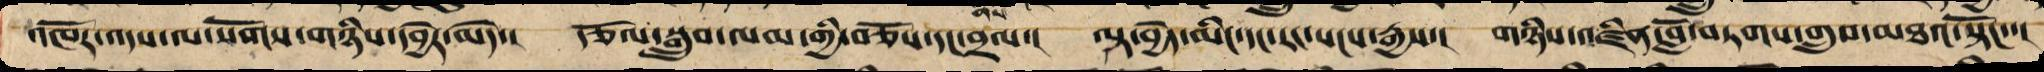འཁོར་འདས་ལ་སོགས་གཉིས་དབྱེར་མེད་།  རྩོོོལ་སྒྲུབ་ལམ་་གྱི་བཅོས་དང་བྲལ་།   ལྟ་བྱེད་མིང་དང་རང་སངས་རྒྱས་།   གཉིས་འཛིན་བློ་བཏགས་གྲུབ་མཐའ་སྟོང་་།
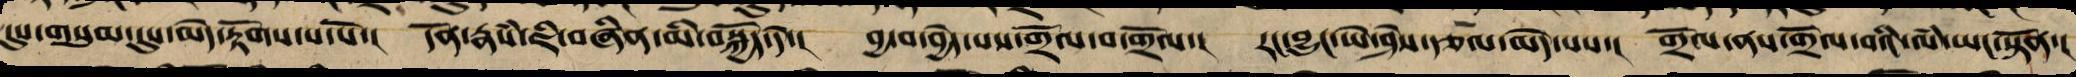དུས་གསུམ་དུས་མེད་རྟོགས་པ་པོ་། དོན་རྣཾས་ཇི་བཞིན་མི་བསྐྱོད་དེ་། བྱ་བ་བྱེད་པས་གྲོལ་བ་གྲོལ་། རང་བྱུང་ཡེ་ཤེས་རྩལ་མེད་པས་། གྲོལ་ནས་གྲོལ་བའི་ལཾ་ཡང་སྟོན་།
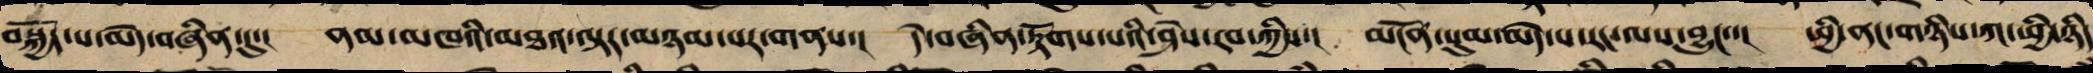བསྐྱོད་པ་མེད་བཞིན་དུ་། ནམ་མཁའི་མཐའ་ལྟར་མཉམ་པར་གནས་། དེ་བཞིན་རྟོགས་པའི་ཤེས་རབ་ཀྱིས་། མངོན་སུམ་མེད་པ་རང་ལས་བྱུང་་། ཕྱི་ནང་གཉིས་ཀ་ཕྱི་ཉིད
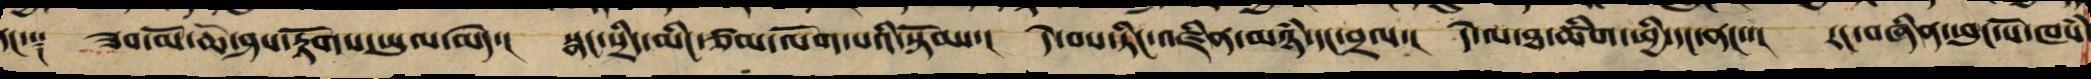དང་༑ ཟབ་མོ་ཆ་ཤས་རྟོགས་ཡུལ་མེད་། སྣང་སྲིད་མིང་ཙམ་ལོག་པའི་སྟོབས་། དེ་བས་ཏིང་འཛིན་མཉཾ་དང་བྲལ་། དེ་ལ་ཐ་ཚིག་ཕྱི་དང་ནང་་། རང་བཞིན་ཕུང་པོ་ཁཾས་
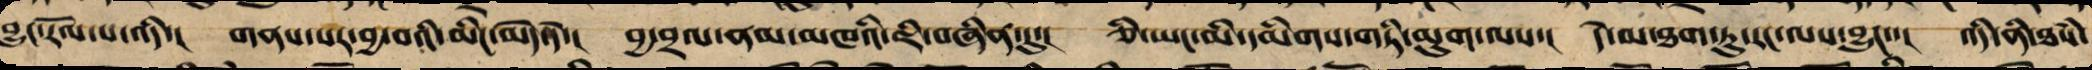བྱུང་རོལ་པ་འདི་། གནས་པར་བྱ་བའི་མིང་མེད་དེ་། བྱ་བྲལ་ནམ་མཁའི་ཇི་བཞིན་དུ་། ཅི་ཡང་མི་དམིགས་གཏི་མུག་ལས་། དེ་མ་ཐག་ཏུ་རང་ལས་བྱུང་་། འདི་ནི་ཐཾས་
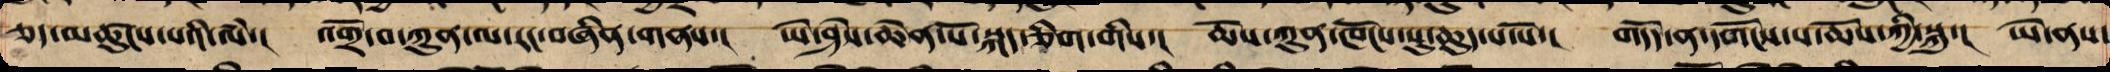ཅད་མཚུངས་པའི་ལཾ་། འགྲོ་བ་ཀུན་ལ་རང་བཞིན་གནས་། ཡེ་ཤེས་ཆེན་པོ་སྐད་ཅིག་གིས་། ཆོས་ཀུན་ཁོང་དུ་ཆུད་པ་པོ་། གདོད་ནས་དག་པ་ཆོས་ཀྱི་སྐུ་། ཡེ་ནས་
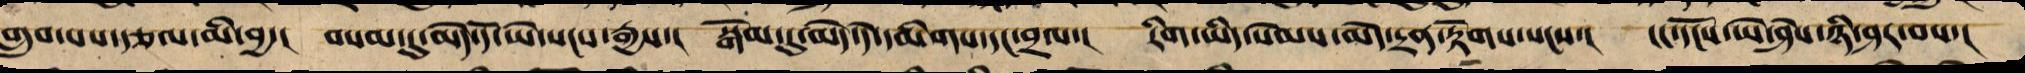གྲུབ་པས་བཙལ་མི་བྱ་། བསམ་དུ་མེད་དེ་ཡེ་སངས་རྒྱས་། སྒོམ་དུ་མེད་དེ་དམིགས་དང་བྲལ་། རིག་ཡིད་སེམས་མེད་དྲན་རྟོག་སངས་། ངང་དངོས་ཡེ་ཤེས་ཉི་ཤར་བས་།
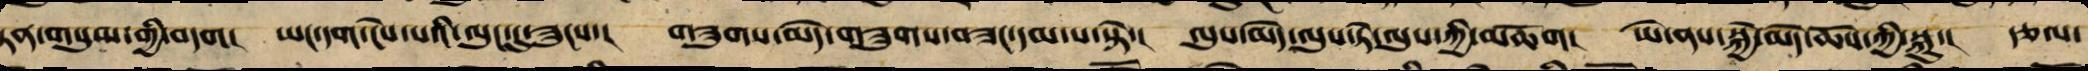ཏན་གསུམ་གྱི་བདག། ཡང་དག་ངེས་པའི་ལུང་དུ་ཟུངས་། གཟུགས་མེད་གཟུགས་བཟང་དམ་པ་སྟེ་། ལུས་མེད་ལུས་ཏེ་ལུས་ཀྱི་མཆོག། ཡེ་ནས་སྐྱེ་མེད་ཆོས་ཀྱི་སྐུ་། རྩལ་
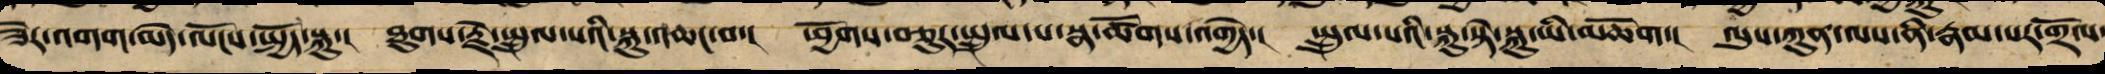ཟེར་འགག་མེད་ལོངས་སྤྱོད་སྐུ་། ཐུགས་རྗེ་སྤྲུལ་པའི་སྐུ་འཆང་བ་། ཕྱོགས་བཅུར་སྤྲུལ་པ་སྣ་ཚོགས་འགྱེད་། སྤྲུལ་པའི་སྐུ་སྟེ་སྐུ་ཡི་མཆོག། ལུས་ཀུན་ལས་ནི་རྣམ་པར་གྲོལ་
